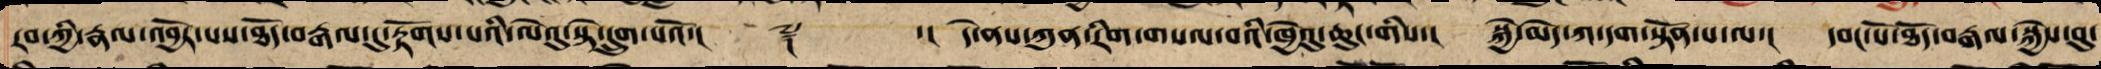རབ་ཀྱི་རྣལ་འབྱོར་པས་ཐོད་རྒལ་དུ་རྟོགས་པར་བསྟན་པའི་ལེའུ་སྟེ་དྲུག་པའོ་།། ༈ ་། དེ་ནས་ཀུན་རིག་གསལ་བའི་ཁྱེའུ་ཆུང་གིས་། སྐྱེ་མེད་ཀ་དག་སྟོན་པ་ལ་། དབང་པོ་ཐོད་རྒལ་སྐྱེས་བུ་
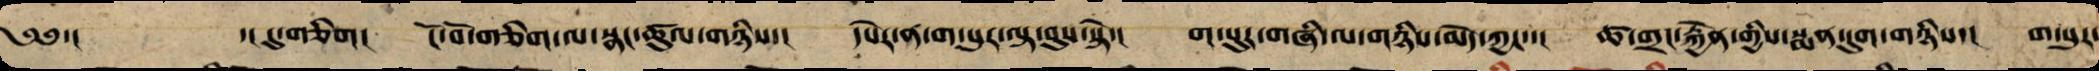༄༅་། ་།དུ་གཅིག། ངོ་བོ་གཅིག་ལ་སྣང་ཚུལ་གཉིས་། དཔེར་ན་ག་པུར་ལྟ་བུས་སྟེ་། ག་པུར་གཞི་ལ་གཉིས་མེད་ཀྱང་་། ཚ་གྲང་རྐྱེན་གྱིས་སྨན་དུག་གཉིས་། ག་པུར་
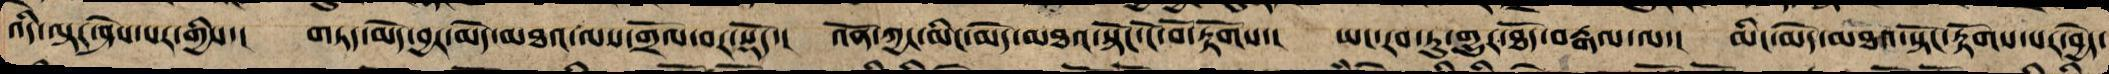འདི་ལྟར་ཤེས་པར་གྱིས་། གཏད་མེད་བྱར་མེད་མཐའ་ལས་གྲོལ་བར་སྡོད་། འོན་ཀྱང་མིང་མེད་མཐའ་སྟོངས་ངོ་བོ་རྟོགས་། ཡང་རབ་ཏུ་གྱུར་ཐོད་རྒལ་ལ་། མིང་མེད་མཐའ་སྟོངས་རྟོགས་པར་བྱེད་
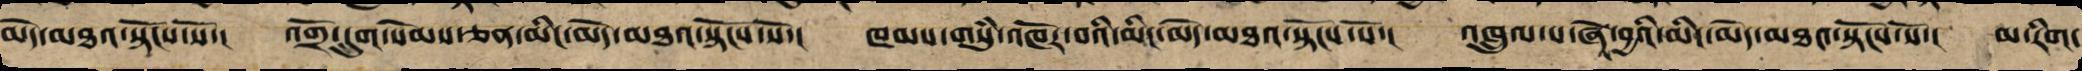མེད་མཐའ་སྟོངས་སོ་། འགྲོ་དྲུག་སེམས་ཅན་མིང་མེད་མཐའ་སྟོངས་སོ་། ཁམས་གསུཾ་འཁོར་བའི་མིང་མེད་མཐའ་སྟོངས་སོ་། འཁྲུལ་པ་ཞེས་བྱའི་མིང་མེད་མཐའ་སྟོངས་སོ་། མ་རིག་
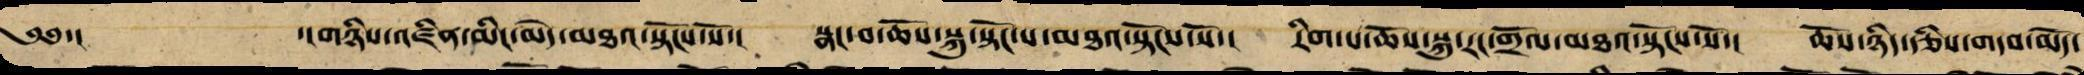༄༅་། ་།གཉིས་འཛིན་མིང་མེད་མཐའ་སྟོངས་སོ་། སྣང་བ་ཆོས་སྐུ་སྟོང་པར་མཐའ་སྟོངས་སོ་། རིག་པ་ཆོས་སྐུ་རང་གྲོལ་མཐའ་སྟོངས་སོ་། ཆོས་ཉིད་རྩིས་གདབ་མེད་
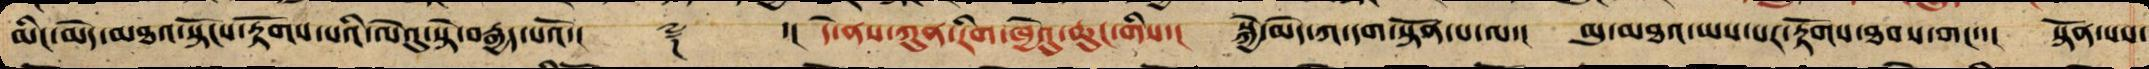མིང་མེད་མཐའ་སྟོངས་རྟོགས་པའི་ལེའུ་སྟེ་བརྒྱད་པའོ་།། ༈ ་།། དེ་ནས་ཀུན་རིག་ཁྱེའུ་ཆུང་གིས་། སྐྱེ་མེད་ཀ་དག་སྟོན་པ་ལ་། མུ་མཐའ་ཡས་པར་རྟོགས་ཐབས་གང་་། སྟོན་པས་
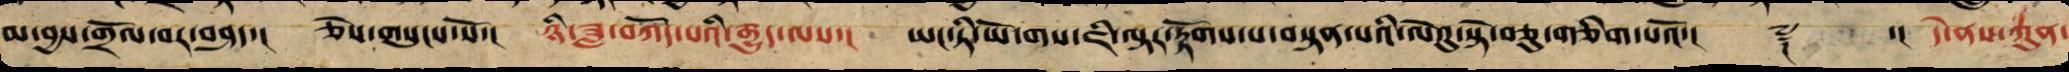མ་བྱས་གྲོལ་བར་བཤད་། ཅེས་གསུངས་སོ་། ཉི་ཟླ་བཀོད་པའི་རྒྱུད་ལས་། ཡང་ཏི་ཡོ་གས་ཇི་ལྟར་རྟོགས་པ་བསྟན་པའི་ལེའུ་སྟེ་བཅུ་གཅིག་པའོ་།། ༈ ་།། དེ་ནས་ཀུན་
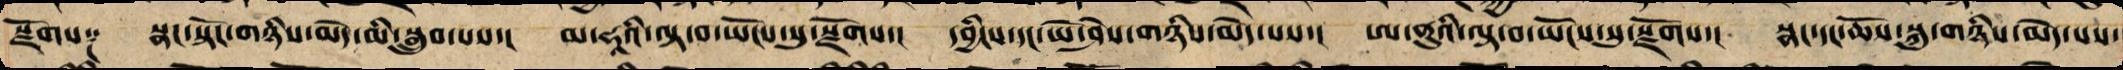སྫོགས༑ སྣང་སྟོང་གཉིས་མེད་མི་སྒྲུབ་པས་། མ་ཧཱའི་ལྟ་བ་ཡོངས་སུ་སྫོགས་། དབྱིངས་དང་ཡེ་ཤེས་གཉིས་མེད་པས་། ཨ་ནུའི་ལྟ་བ་ཡོངས་སུ་སྫོགས་། སྣང་དང་ཆོས་སྐུ་གཉིས་མེད་པས་
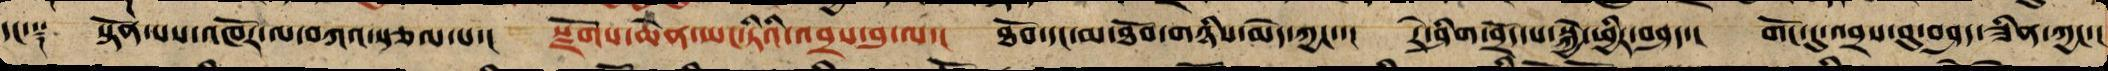དང་༑ སྟོན་པས་འཁོར་ལ་བཀའ་སྩལ་པ་། སྫོགས་ཆེན་ཡང་ཏིའི་འབྲས་བུ་ལ་། ཐོབ་དང་མ་ཐོབ་གཉིས་མེད་ཀྱང་་། རེ་ཞིག་བྲོད་པ་སྐྱེ་ཕྱིར་བཤད་། གོང་དུ་འབྲས་བུ་བཤད་ཟིན་ཀྱང་་།
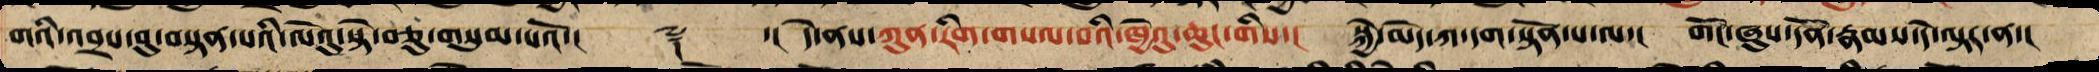གའི་འབྲས་བུ་བསྟན་པའི་ལེའུ་སྟེ་བཅུ་གསུམ་པའོ་།། ༈ ་།། དེ་ནས་ཀུན་རིག་གསལ་བའི་ཁྱེའུ་ཆུང་གིས་། སྐྱེ་མེད་ཀ་དག་སྟོན་པ་ལ་། གོང་ཞུས་དོན་རྣམས་དེ་ལྟར་ན་།
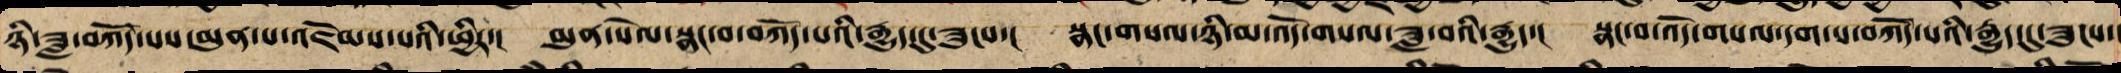ཉི་ཟླ་བཀོད་པས་མུན་པ་འཇོམས་པའི་ཕྱིར་། མུན་སེལ་སྣང་བ་བཀོད་པའི་རྒྱུད་དུ་ཟུངས་། སྣང་གསལ་ཉི་མ་འོད་གསལ་ཟླ་བའི་རྒྱུད་། སྣང་བ་འོད་གསལ་དག་པ་བཀོད་པའི་རྒྱུད་དུ་ཟུངས་
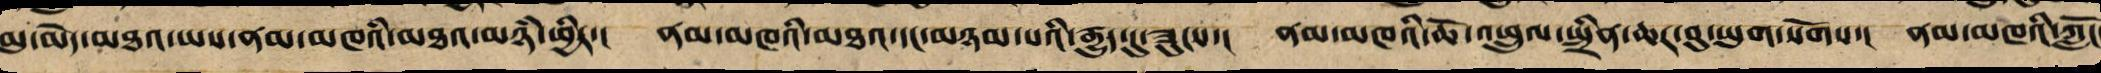མུ་མེད་མཐའ་ཡས་ནམ་མཁའི་མཐའ་མཉཾ་ཕྱིར་། ནམ་མཁའི་མཐའ་དང་མཉམ་པའི་རྒྱུད་དུ་ཟུངས་། ནམ་མཁའི་ཆོ་འཕྲུལ་སྤྲིན་ཆར་བུ་ཡུག་སོགས་། ནམ་མཁའི་ཀློང
